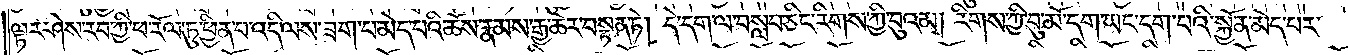ལྟར་ཤེས་རབ་ཀྱི་ཕ་རོལ་ཏུ་ཕྱིན་པ་འདི་ལས་ཟག་པ་མེད་པའི་ཆོས་རྣམས་རྒྱ་ཆེར་བསྟན་ཏེ། དེ་དག་ལ་བསླབ་ཅིང་རིགས་ཀྱི་བུའམ། རིགས་ཀྱི་བུ་མོ་དག་ཡང་དག་པའི་སྐྱོན་མེད་པར་
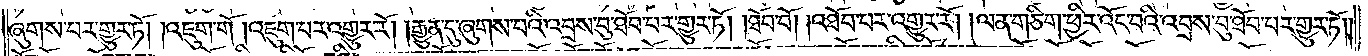ཞུགས་པར་གྱུར་ཏོ། །འཇུག་གོ །འཇུག་པར་འགྱུར་རོ། །རྒྱུན་དུ་ཞུགས་པའི་འབྲས་བུ་ཐོབ་པར་གྱུར་ཏོ། །ཐོབ་བོ། འཐོབ་པར་འགྱུར་རོ། །ལན་གཅིག་ཕྱིར་འོང་བའི་འབྲས་བུ་ཐོབ་པར་གྱུར་ཏོ། །
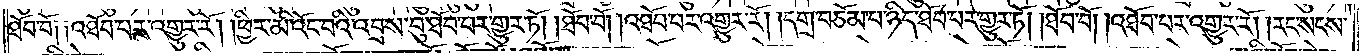ཐོབ་བོ༑ ༑འཐོབ་པར་འགྱུར་རོ། །ཕྱིར་མི་འོང་བའི་འབྲས་བུ་ཐོབ་པར་གྱུར་ཏོ། །ཐོབ་བོ། །འཐོབ་པར་འགྱུར་རོ། །དགྲ་བཅོམ་པ་ཉིད་ཐོབ་པར་གྱུར་ཏོ། །ཐོབ་བོ། །འཐོབ་པར་འགྱུར་རོ། །རང་སངས་
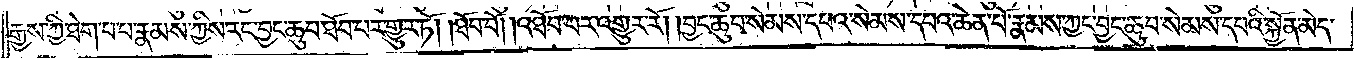རྒྱས་ཀྱི་ཐེག་པ་པ་རྣམས་ཀྱིས་རང་བྱང་ཆུབ་ཐོབ་པར་གྱུར་ཏོ། །ཐོབ་བོ། འཐོབ་པར་འགྱུར་རོ། །བྱང་ཆུབ་སེམས་དཔའ་སེམས་དཔའ་ཆེན་པོ་རྣམས་ཀྱང་བྱང་ཆུབ་སེམས་དཔའི་སྐྱོན་མེད་
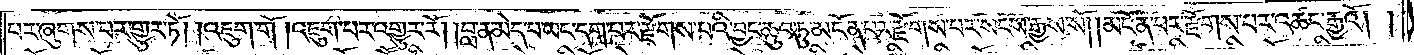པར་ཞུགས་པར་གྱུར་ཏོ། །འཇུག་གོ །འཇུག་པར་འགྱུར་རོ། །བླ་ན་མེད་པ་ཡང་དག་པར་རྫོགས་པའི་བྱང་ཆུབ་ཏུ་མངོན་པར་རྫོགས་པར་སངས་རྒྱས་སོ། །མངོན་པར་རྫོགས་པར་འཚང་རྒྱའོ། །
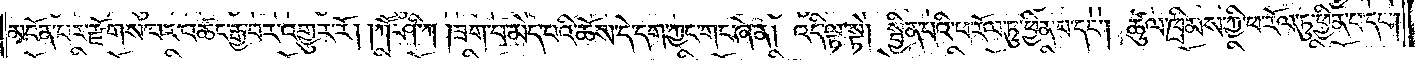མངོན་པར་རྫོགས་པར་འཆང་རྒྱ་བར་འགྱུར་རོ། །ཀཽ་ཤི་ཀ །ཟག་པ་མེད་པའི་ཆོས་དེ་དག་ཀྱང་གང་ཞེ་ན། འདི་ལྟ་སྟེ། སྦྱིན་པའི་ཕ་རོལ་ཏུ་ཕྱིན་པ་དང༌། ཚུལ་ཁྲིམས་ཀྱི་ཕ་རོལ་ཏུ་ཕྱིན་པ་དང༌།
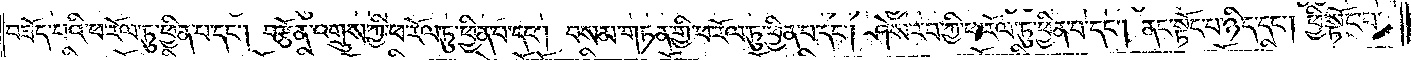བཟོད་པའི་ཕ་རོལ་ཏུ་ཕྱིན་པ་དང༌། བརྩོན་འགྲུས་ཀྱི་ཕ་རོལ་ཏུ་ཕྱིན་པ་དང༌། བསམ་གཏན་གྱི་ཕ་རོལ་ཏུ་ཕྱིན་པ་དང༌། ཤེས་རབ་ཀྱི་ཕ་རོལ་ཏུ་ཕྱིན་པ་དང༌། ནང་སྟོང་པ་ཉིད་དང༌། ཕྱི་སྟོང་པ་
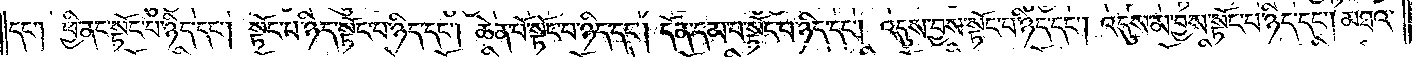དང༌། ཕྱི་ནང་སྟོང་པ་ཉིད་དང༌། སྟོང་པ་ཉིད་སྟོང་པ་ཉིད་དང༌། ཆེན་པོ་སྟོང་པ་ཉིད་དང༌། དོན་དམ་པ་སྟོང་པ་ཉིད་དང༌། འདུས་བྱས་སྟོང་པ་ཉིད་དང༌། འདུས་མ་བྱས་སྟོང་པ་ཉིད་དང༌། མཐའ་
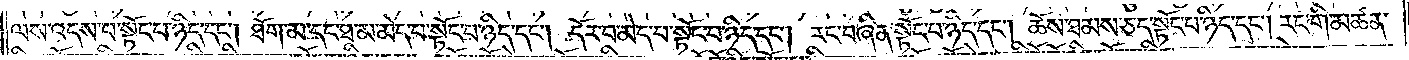ལས་འདས་པ་སྟོང་པ་ཉིད་དང༌། ཐོག་མ་དང་ཐ་མ་མེད་པ་སྟོང་པ་ཉིད་དང༌། དོར་བ་མེད་པ་སྟོང་པ་ཉིད་དང༌། རང་བཞིན་སྟོང་པ་ཉིད་དང༌། ཆོས་ཐམས་ཅད་སྟོང་པ་ཉིད་དང༌། རང་གི་མཚན་
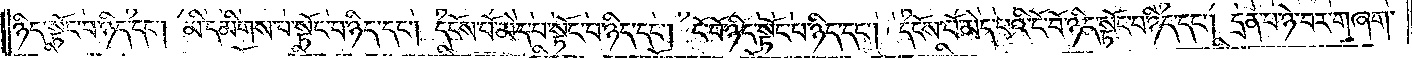ཉིད་སྟོང་པ་ཉིད་དང༌། མི་དམིགས་པ་སྟོང་པ་ཉིད་དང༌། དངོས་པོ་མེད་པ་སྟོང་པ་ཉིད་དང༌། ངོ་བོ་ཉིད་སྟོང་པ་ཉིད་དང༌། དངོས་པོ་མེད་པའི་ངོ་བོ་ཉིད་སྟོང་པ་ཉིད་དང༌། དྲན་པ་ཉེ་བར་གཞག་
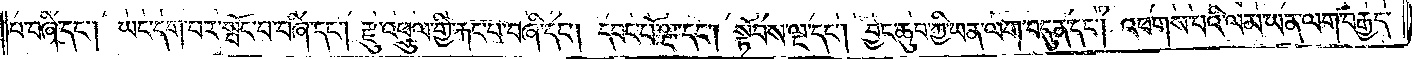པ་བཞི་དང༌། ཡང་དག་པར་སྤོང་བ་བཞི་དང༌། རྫུ་འཕྲུལ་གྱི་རྐང་པ་བཞི་དང༌། དབང་པོ་ལྔ་དང༌། སྟོབས་ལྔ་དང༌། བྱང་ཆུབ་ཀྱི་ཡན་ལག་བདུན་དང༌། འཕགས་པའི་ལམ་ཡན་ལག་བརྒྱད་
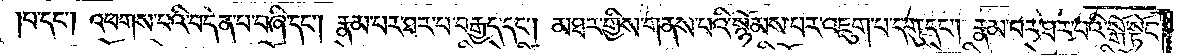པ་དང༌། འཕགས་པའི་བདེན་པ་བཞི་དང༌། རྣམ་པར་ཐར་པ་བརྒྱད་དང༌། མཐར་གྱིས་གནས་པའི་སྙོམས་པར་འཇུག་པ་དགུ་དང༌། རྣམ་པར་ཐར་པའི་སྒོ་སྟོང་
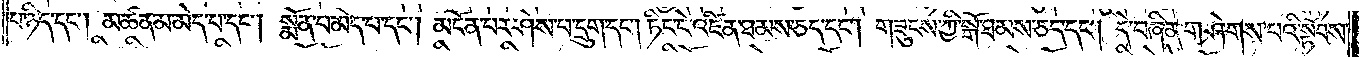པ་ཉིད་དང༌། མཚན་མ་མེད་པ་དང༌། སྨོན་པ་མེད་པ་དང༌། མངོན་པར་ཤེས་པ་དྲུག་དང༌། ཏིང་ངེ་འཛིན་ཐམས་ཅད་དང༌། གཟུངས་ཀྱི་སྒོ་ཐམས་ཅད་དང༌། དེ་བཞིན་གཤེགས་པའི་སྟོབས་
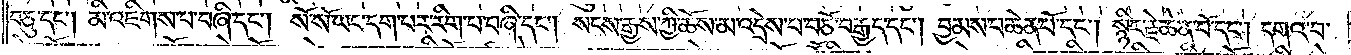བཅུ་དང༌། མི་འཇིགས་པ་བཞི་དང༌། སོ་སོ་ཡང་དག་པར་རིག་པ་བཞི་དང༌། སངས་རྒྱས་ཀྱི་ཆོས་མ་འདྲེས་པ་བཅོ་བརྒྱད་དང༌། བྱམས་པ་ཆེན་པོ་དང༌། སྙིང་རྗེ་ཆེན་པོ་དང༌། དགའ་བ་
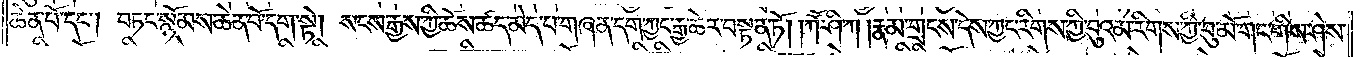ཆེན་པོ་དང༌། བཏང་སྙོམས་ཆེན་པོ་དག་སྟེ། སངས་རྒྱས་ཀྱི་ཆོས་ཚད་མེད་པ་གཞན་དག་ཀྱང་རྒྱ་ཆེར་བསྟན་ཏོ། །ཀཽ་ཤི་ཀ །རྣམ་གྲངས་དེས་ཀྱང་རིགས་ཀྱི་བུའམ་རིགས་ཀྱི་བུ་མོ་གང་གིས་ཤེས་
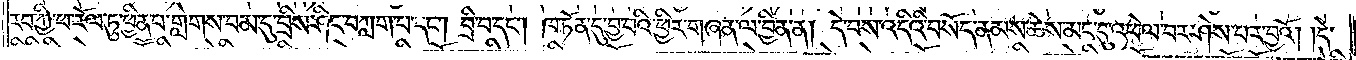རབ་ཀྱི་ཕ་རོལ་ཏུ་ཕྱིན་པ་གླེགས་བམ་དུ་བྲིས་ཤིང་བཀླག་པ་དང༌། བྲི་བ་དང༌། ཁ་ཏོན་དུ་བྱ་བའི་ཕྱིར་གཞན་ལ་བྱིན་ན། དེ་བས་འདིའི་བསོད་ནམས་ཆེས་མང་དུ་འཕེལ་བར་ཤེས་པར་བྱའོ། །དེ་
